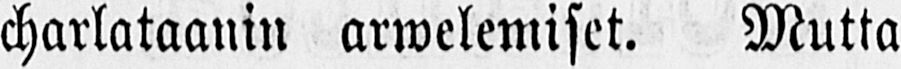charlataanin arwelemiset. Mutta
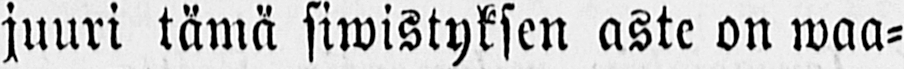juuri tämä siwistyksen aste on waa-
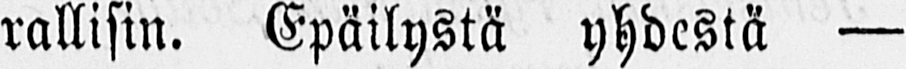rallisin. Epäilystä yhdestä —
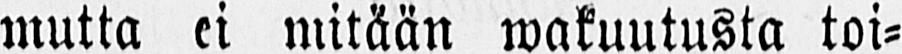mutta ei mitään wakuutusta toi-
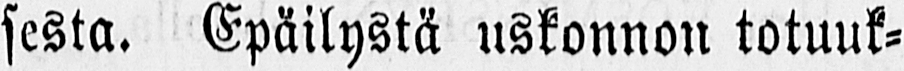sesta. Epäilystä uskonnon totuuk-
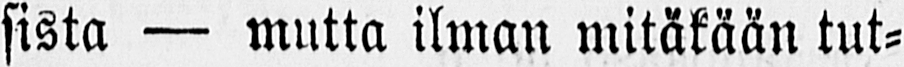sista — mutta ilman mitäkään tut-
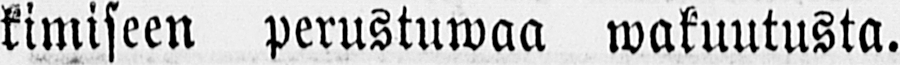kimiseen perustuwaa wakuutusta.
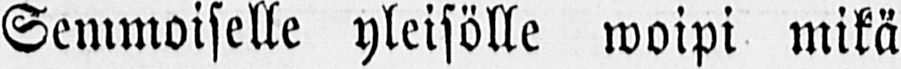Semmoiselle yleisölle woipi mikä
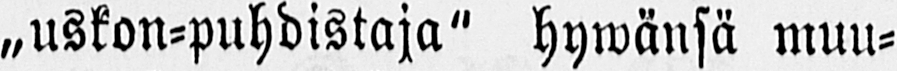„uskon-puhdistaja" hywänsä muu-
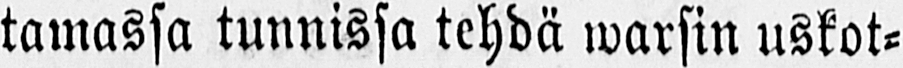tamassa tunnissa tehdä warsin uskot-
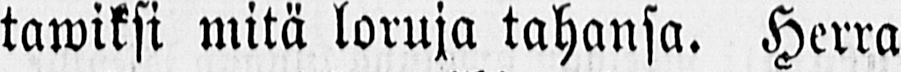tawiksi mitä loruja tahansa. Herra
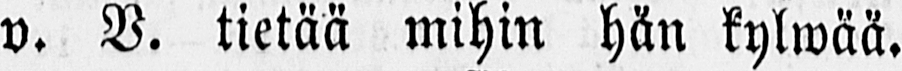v. V. tietää mihin hän kylwää.
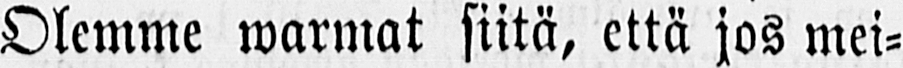Olemme warmat siitä, että jos mei-
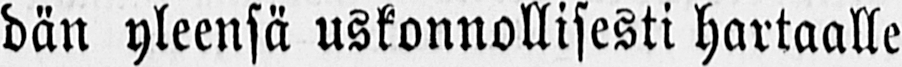dän yleensä uskonnollisesti hartaalle
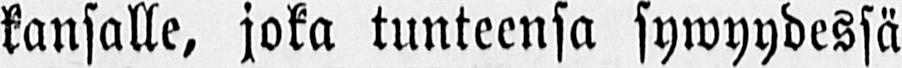kansalle, joka tunteensa sywyydessä
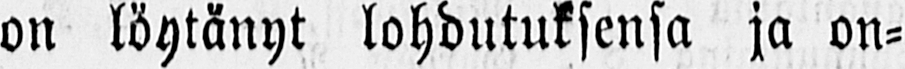on löytänyt lohdutuksensa ja on-
